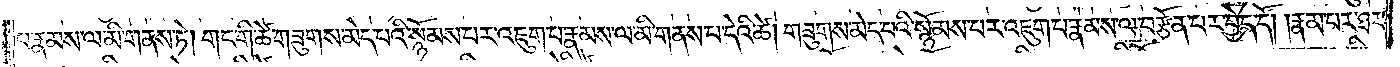པ་རྣམས་ལ་མི་གནས་ཏེ། གང་གི་ཚེ་གཟུགས་མེད་པའི་སྙོམས་པར་འཇུག་པ་རྣམས་ལ་མི་གནས་པ་དེའི་ཚེ། གཟུགས་མེད་པའི་སྙོམས་པར་འཇུག་པ་རྣམས་ལ་བརྩོན་པར་བྱེད་དོ། །རྣམ་པར་ཐར་
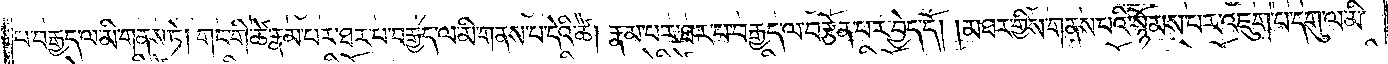པ་བརྒྱད་ལ་མི་གནས་ཏེ། གང་གི་ཚེ་རྣམ་པར་ཐར་པ་བརྒྱད་ལ་མི་གནས་པ་དེའི་ཚེ། རྣམ་པར་ཐར་པ་བརྒྱད་ལ་བརྩོན་པར་བྱེད་དོ། །མཐར་གྱིས་གནས་པའི་སྙོམས་པར་འཇུག་པ་དགུ་ལ་མི་
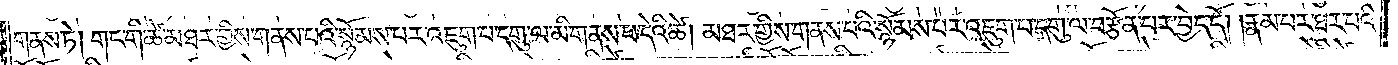གནས་ཏེ། གང་གི་ཚེ་མཐར་གྱིས་གནས་པའི་སྙོམས་པར་འཇུག་པ་དགུ་ལ་མི་གནས་པ་དེའི་ཚེ། མཐར་གྱིས་གནས་པའི་སྙོམས་པར་འཇུག་པ་དགུ་ལ་བརྩོན་པར་བྱེད་དོ། །རྣམ་པར་ཐར་པའི་
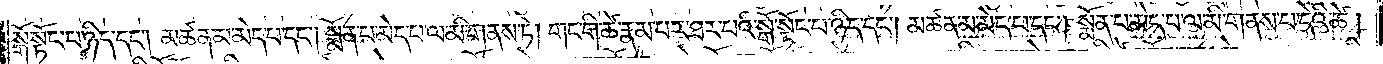སྒོ་སྟོང་པ་ཉིད་དང༌། མཚན་མ་མེད་པ་དང༌། སྨོན་པ་མེད་པ་ལ་མི་གནས་ཏེ། གང་གི་ཚེ་རྣམ་པར་ཐར་པའི་སྒོ་སྟོང་པ་ཉིད་དང༌། མཚན་མ་མེད་པ་དང༌། སྨོན་པ་མེད་པ་ལ་མི་གནས་པ་དེའི་ཚེ།
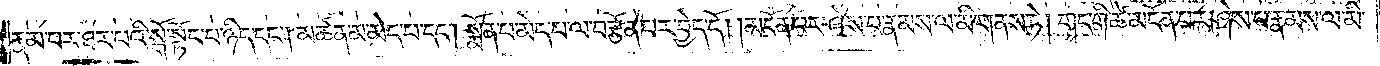རྣམ་པར་ཐར་པའི་སྒོ་སྟོང་པ་ཉིད་དང༌། མཚན་མ་མེད་པ་དང༌། སྨོན་པ་མེད་པ་ལ་བརྩོན་པར་བྱེད་དོ། །མངོན་པར་ཤེས་པ་རྣམས་ལ་མི་གནས་ཏེ། གང་གི་ཚེ་མངོན་པར་ཤེས་པ་རྣམས་ལ་མི་
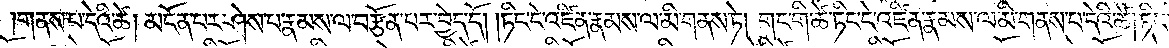གནས་པ་དེའི་ཚེ། མངོན་པར་ཤེས་པ་རྣམས་ལ་བརྩོན་པར་བྱེད་དོ། །ཏིང་ངེ་འཛིན་རྣམས་ལ་མི་གནས་ཏེ། གང་གི་ཚེ་ཏིང་ངེ་འཛིན་རྣམས་ལ་མི་གནས་པ་དེའི་ཚེ། ཏིང་
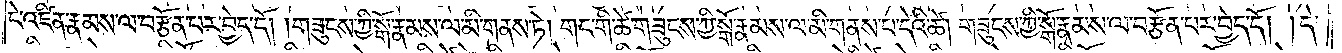ངེ་འཛིན་རྣམས་ལ་བརྩོན་པར་བྱེད་དོ། །གཟུངས་ཀྱི་སྒོ་རྣམས་ལ་མི་གནས་ཏེ། གང་གི་ཚེ་གཟུངས་ཀྱི་སྒོ་རྣམས་ལ་མི་གནས་པ་དེའི་ཚེ། གཟུངས་ཀྱི་སྒོ་རྣམས་ལ་བརྩོན་པར་བྱེད་དོ། །དེ་
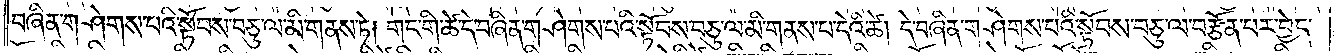བཞིན་གཤེགས་པའི་སྟོབས་བཅུ་ལ་མི་གནས་ཏེ། གང་གི་ཚེ་དེ་བཞིན་གཤེགས་པའི་སྟོབས་བཅུ་ལ་མི་གནས་པ་དེའི་ཚེ། དེ་བཞིན་གཤེགས་པའི་སྟོབས་བཅུ་ལ་བརྩོན་པར་བྱེད་
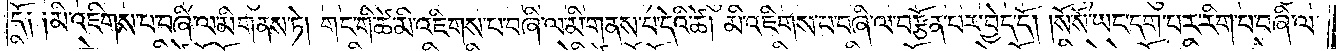དོ༑ ༑མི་འཇིགས་པ་བཞི་ལ་མི་གནས་ཏེ། གང་གི་ཚེ་མི་འཇིགས་པ་བཞི་ལ་མི་གནས་པ་དེའི་ཚེ། མི་འཇིགས་པ་བཞི་ལ་བརྩོན་པར་བྱེད་དོ། །སོ་སོ་ཡང་དག་པར་རིག་པ་བཞི་ལ་
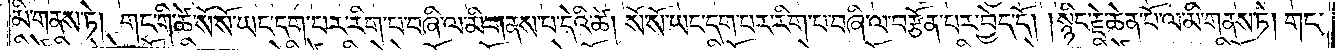མི་གནས་ཏེ། གང་གི་ཚེ་སོ་སོ་ཡང་དག་པར་རིག་པ་བཞི་ལ་མི་གནས་པ་དེའི་ཚེ། སོ་སོ་ཡང་དག་པར་རིག་པ་བཞི་ལ་བརྩོན་པར་བྱེད་དོ། །སྙིང་རྗེ་ཆེན་པོ་ལ་མི་གནས་ཏེ། གང་
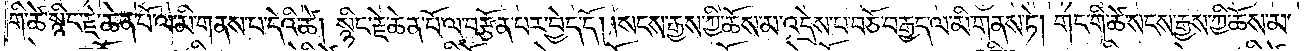གི་ཚེ་སྙིང་རྗེ་ཆེན་པོ་ལ་མི་གནས་པ་དེའི་ཚེ། སྙིང་རྗེ་ཆེན་པོ་ལ་བརྩོན་པར་བྱེད་དོ། །སངས་རྒྱས་ཀྱི་ཆོས་མ་འདྲེས་པ་བཅོ་བརྒྱད་ལ་མི་གནས་ཏེ། གང་གི་ཚེ་སངས་རྒྱས་ཀྱི་ཆོས་མ་
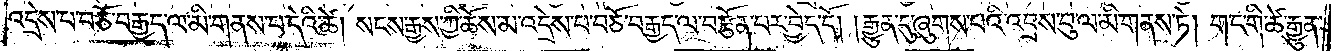འདྲེས་པ་བཅོ་བརྒྱད་ལ་མི་གནས་པ་དེའི་ཚེ། སངས་རྒྱས་ཀྱི་ཆོས་མ་འདྲེས་པ་བཅོ་བརྒྱད་ལ་བརྩོན་པར་བྱེད་དོ། །རྒྱུན་དུ་ཞུགས་པའི་འབྲས་བུ་ལ་མི་གནས་ཏེ། གང་གི་ཚེ་རྒྱུན་
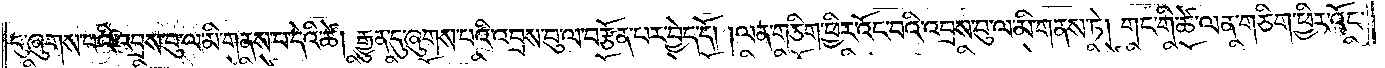དུ་ཞུགས་པའི་འབྲས་བུ་ལ་མི་གནས་པ་དེའི་ཚེ། རྒྱུན་དུ་ཞུགས་པའི་འབྲས་བུ་ལ་བརྩོན་པར་བྱེད་དོ། །ལན་གཅིག་ཕྱིར་འོང་བའི་འབྲས་བུ་ལ་མི་གནས་ཏེ། གང་གི་ཚེ་ལན་གཅིག་ཕྱིར་འོང་
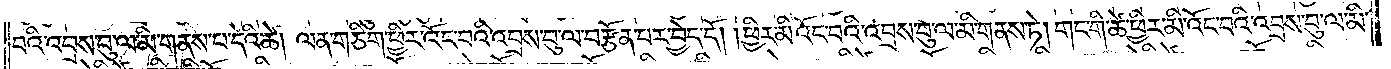བའི་འབྲས་བུ་ལ་མི་གནས་པ་དེའི་ཚེ། ལན་གཅིག་ཕྱིར་འོང་བའི་འབྲས་བུ་ལ་བརྩོན་པར་བྱེད་དོ། །ཕྱིར་མི་འོང་བའི་འབྲས་བུ་ལ་མི་གནས་ཏེ། གང་གི་ཚེ་ཕྱིར་མི་འོང་བའི་འབྲས་བུ་ལ་མི་
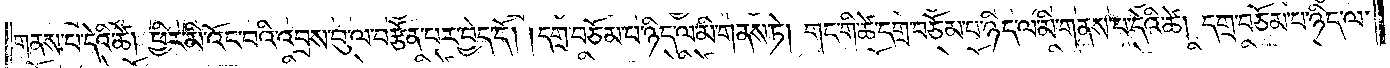གནས་པ་དེའི་ཚེ། ཕྱིར་མི་འོང་བའི་འབྲས་བུ་ལ་བརྩོན་པར་བྱེད་དོ། །དགྲ་བཅོམ་པ་ཉིད་ལ་མི་གནས་ཏེ། གང་གི་ཚེ་དགྲ་བཅོམ་པ་ཉིད་ལ་མི་གནས་པ་དེའི་ཚེ། དགྲ་བཅོམ་པ་ཉིད་ལ་
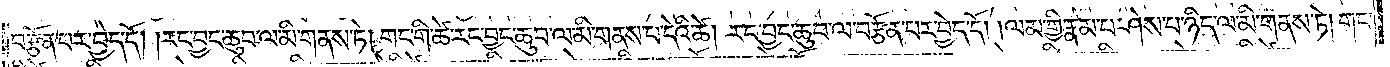བརྩོན་པར་བྱེད་དོ། །རང་བྱང་ཆུབ་ལ་མི་གནས་ཏེ། གང་གི་ཚེ་རང་བྱང་ཆུབ་ལ་མི་གནས་པ་དེའི་ཚེ། རང་བྱང་ཆུབ་ལ་བརྩོན་པར་བྱེད་དོ། །ལམ་གྱི་རྣམ་པ་ཤེས་པ་ཉིད་ལ་མི་གནས་ཏེ། གང་
